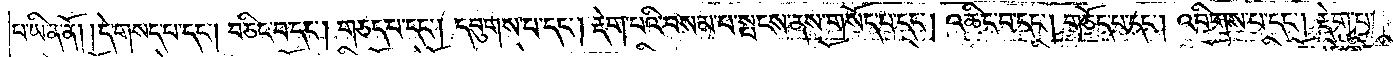པ་ཡིན་ནོ། །དེ་གསད་པ་དང༌། བཅིང་བ་དང༌། གཅད་པ་དང༌། དབུགས་པ་དང༌། རྡེག་པའི་བསམ་པ་སྤངས་ནས་གསོད་པ་དང༌། འཆིང་བ་དང༌། གཅོད་པ་དང༌། འབིགས་པ་དང༌། རྡེག་པ་
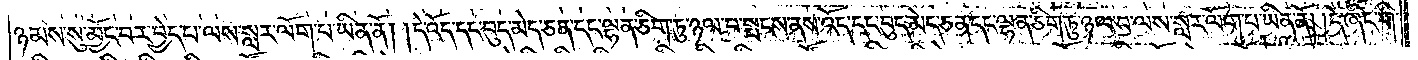ཉམས་སུ་མྱོང་བར་བྱེད་པ་ལས་སླར་ལོག་པ་ཡིན་ནོ། །དེ་འོད་དང་བུད་མེད་ཅན་དང་ལྷན་ཅིག་ཏུ་ཉལ་བ་སྤངས་ནས་འོད་དང་བུད་མེད་ཅན་དང་ལྷན་ཅིག་ཏུ་ཉལ་བ་ལས་སླར་ལོག་པ་ཡིན་ནོ། །དེ་ཞིང་གི་
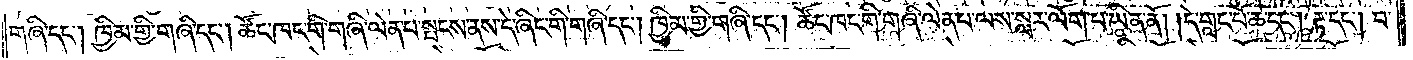གཞི་དང༌། ཁྱིམ་གྱི་གཞི་དང༌། ཚོང་ཁང་གི་གཞི་ལེན་པ་སྤངས་ནས་དེ་ཞིང་གི་གཞི་དང༌། ཁྱིམ་གྱི་གཞི་དང༌། ཚོང་ཁང་གི་གཞི་ལེན་པ་ལས་སླར་ལོག་པ་ཡིན་ནོ། །དེ་གླང་པོ་ཆེ་དང༌། རྟ་དང༌། བ་
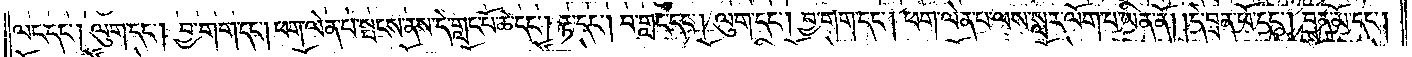ལང་དང༌། ལུག་དང༌། བྱ་གག་དང༌། ཕག་ལེན་པ་སྤངས་ནས་དེ་གླང་པོ་ཆེ་དང༌། རྟ་དང༌། བ་གླང་དང༌། ལུག་དང༌། བྱ་གག་དང༌། ཕག་ལེན་པ་ལས་སླར་ལོག་པ་ཡིན་ནོ། །དེ་བྲན་ཕོ་དང༌། བྲན་མོ་དང༌།
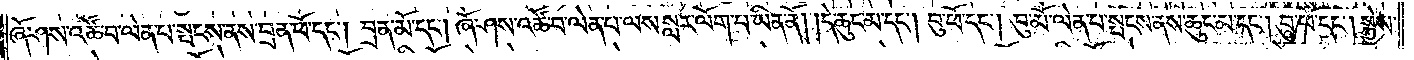ཞོ་ཤས་འཚོ་བ་ལེན་པ་སྤངས་ནས་བྲན་ཕོ་དང༌། བྲན་མོ་དང༌། ཞོ་ཤས་འཚོ་བ་ལེན་པ་ལས་སླར་ལོག་པ་ཡིན་ནོ། །དེ་ཆུང་མ་དང༌། བུ་ཕོ་དང༌། བུ་མོ་ལེན་པ་སྤངས་ནས་ཆུང་མ་དང༌། བུ་ཕོ་དང༌། སྐྱེས་
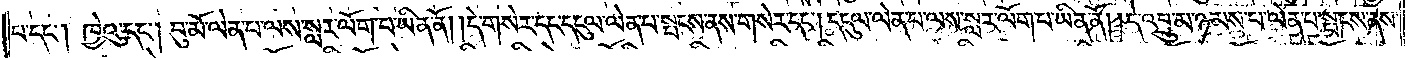པ་དང༌། ཁྱེའུ་དང༌། བུ་མོ་ལེན་པ་ལས་སླར་ལོག་པ་ཡིན་ནོ། །དེ་གསེར་དང་དངུལ་ལེན་པ་སྤངས་ནས་གསེར་དང༌། དངུལ་ལེན་པ་ལས་སླར་ལོག་པ་ཡིན་ནོ། །དེ་འབྲུ་མ་ཉམས་པ་ལེན་པ་སྤངས་ནས་
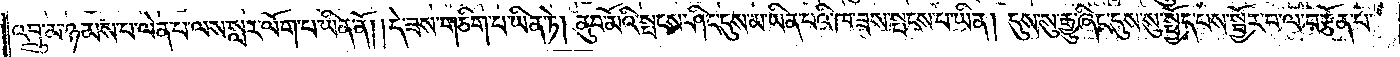འབྲུ་མ་ཉམས་པ་ལེན་པ་ལས་སླར་ལོག་པ་ཡིན་ནོ། །དེ་ཟས་གཅིག་པ་ཡིན་ཏེ། ནུབ་མོའི་སྤངས་ཤིང་དུས་མ་ཡིན་པའི་ཁ་ཟས་སྤངས་པ་ཡིན། དུས་སུ་རྒྱུ་ཞིང་དུས་སུ་སྤྱོད་པས་སྦྱོར་བ་ལ་བརྩོན་པ་
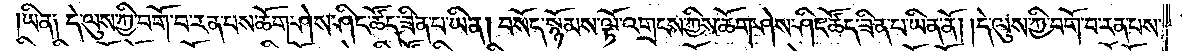ཡིན༑ དེ་ལུས་ཀྱི་བགོ་བ་རན་པས་ཆོག་ཤེས་ཤིང་ཚོད་ཟིན་པ་ཡིན། བསོད་སྙོམས་ལྟོ་འགྲངས་ཀྱིས་ཆོག་ཤེས་ཤིང་ཚོད་ཟིན་པ་ཡིན་ནོ། །དེ་ལུས་ཀྱི་བགོ་བ་རན་པས་
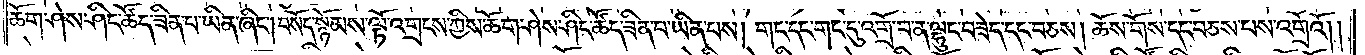ཆོག་ཤེས་ཤིང་ཚོད་ཟིན་པ་ཡིན་ཞིང༌། བསོད་སྙོམས་ལྟོ་འགྲངས་ཀྱིས་ཆོག་ཤེས་ཤིང་ཚོད་ཟིན་པ་ཡིན་པས། གང་དང་གང་དུ་འགྲོ་བ་ན་ལྷུང་བཟེད་དང་བཅས། ཆོས་གོས་དང་བཅས་པས་འགྲོའོ། །
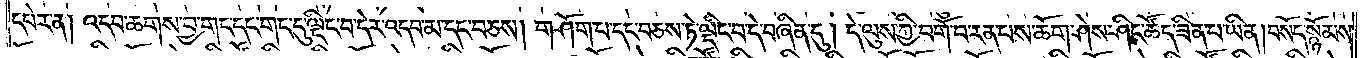དཔེར་ན། འདབ་ཆགས་བྱ་གང་དང་གང་དུ་ལྡིང་བ་དེར་འདབ་མ་དང་བཅས། གཤོག་པ་དང་བཅས་ཏེ་ལྡིང་བ་དེ་བཞིན་དུ། དེ་ལུས་ཀྱི་བགོ་བ་རན་པས་ཆོག་ཤེས་ཤིང་ཚོད་ཟིན་པ་ཡིན། བསོད་སྙོམས་
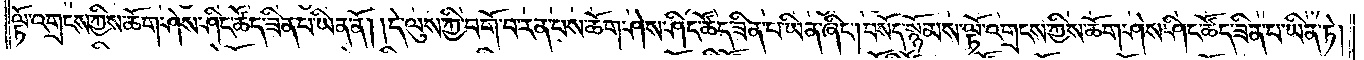ལྟོ་འགྲངས་ཀྱིས་ཆོག་ཤེས་ཤིང་ཚོད་ཟིན་པ་ཡིན་ནོ། །དེ་ལུས་ཀྱི་བགོ་བ་རན་པས་ཆོག་ཤེས་ཤིང་ཚོད་ཟིན་པ་ཡིན་ཞིང༌། བསོད་སྙོམས་ལྟོ་འགྲངས་ཀྱིས་ཆོག་ཤེས་ཤིང་ཚོད་ཟིན་པ་ཡིན་ཏེ།
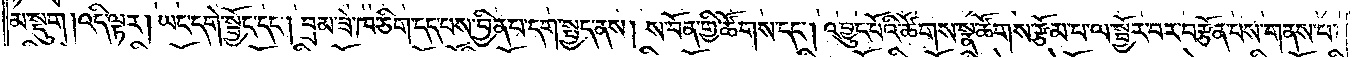མ་སྡུག །འདི་ལྟར། ཡང་དགེ་སྦྱོང་དང༌། བྲམ་ཟེ་ཁ་ཅིག་དད་པས་བྱིན་པ་དག་སྤྱད་ནས། ས་བོན་གྱི་ཚོགས་དང༌། འབྱུང་པོའི་ཚོགས་སྣ་ཚོགས་རྩོམ་པ་ལ་སྦྱོར་བར་བརྩོན་པས་གནས་པ་
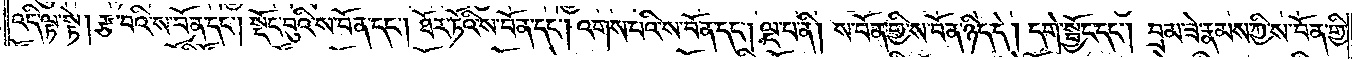འདི་ལྟ་སྟེ། རྩ་བའི་ས་བོན་དང༌། སྡོང་བུའི་ས་བོན་དང༌། ཐོར་ཏོའི་ས་བོན་དང༌། འགས་པའི་ས་བོན་དང༌། ལྔ་པ་ནི། ས་བོན་གྱི་ས་བོན་ཉིད་དེ། དགེ་སྦྱོང་དང༌། བྲམ་ཟེ་རྣམས་ཀྱི་ས་བོན་གྱི་
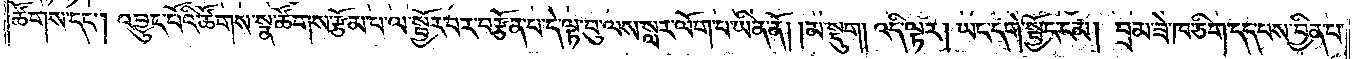ཚོགས་དང༌། འབྱུང་པོའི་ཚོགས་སྣ་ཚོགས་རྩོམ་པ་ལ་སྦྱོར་བར་བརྩོན་པ་དེ་ལྟ་བུ་ལས་སླར་ལོག་པ་ཡིན་ནོ། །མ་སྡུག །འདི་ལྟར། ཡང་དགེ་སྦྱོང་ངམ། བྲམ་ཟེ་ཁ་ཅིག་དད་པས་བྱིན་པ་
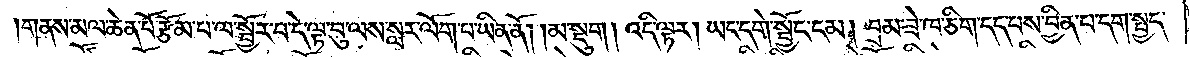གནས་མལ་ཆེན་པོ་རྩོམ་པ་ལ་སྦྱོར་བ་དེ་ལྟ་བུ་ལས་སླར་ལོག་པ་ཡིན་ནོ། །མ་སྡུག། འདི་ལྟར། ཡང་དགེ་སྦྱོང་ངམ། བྲམ་ཟེ་ཁ་ཅིག་དད་པས་བྱིན་པ་དག་སྤྱད་
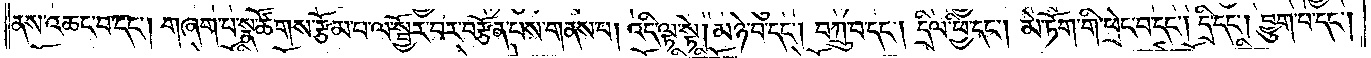ནས་འཆང་བ་དང༌། གཞག་པ་སྣ་ཚོགས་རྩོམ་པ་ལ་སྦྱོར་བར་བརྩོན་པས་ལ་གནས་པ། འདི་ལྟ་སྟེ། མཉེ་བ་དང༌། བཀྲུ་པ་དང༌། དྲིལ་ཕྱི་དང༌། མེ་ཏོག་གི་ཕྲེང་བ་དང༌། དྲི་དང༌། བྱུག་པ་དང༌།
